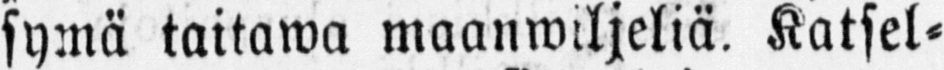symä taitawa maanwiljeliä. Katsel-
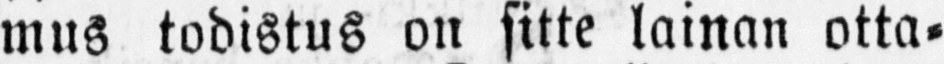mus todistus on sitte lainan otta-
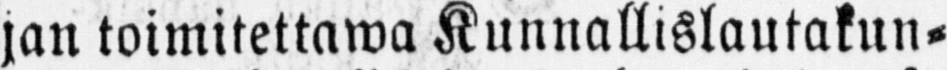jan toimitettawa Kunnallislautakun-
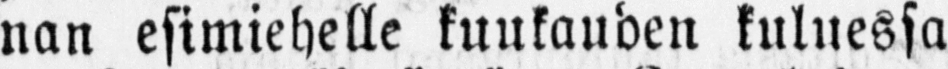nan esimiehelle kuukauden kuluessa
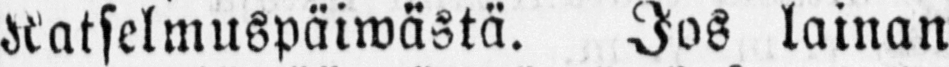Katselmuspäiwästä. Jos lainan
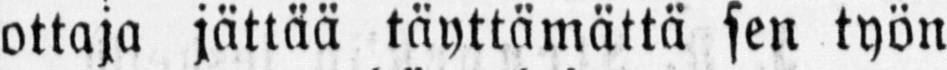ottaja jättää täyttämättä sen työn
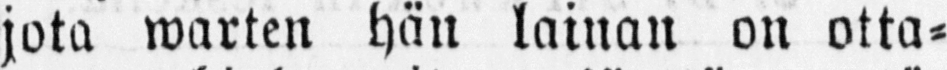jota warten hän lainan on otta-
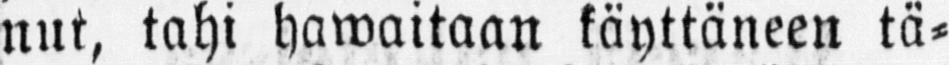nut, tahi hawaitaan käyttäneen tä-
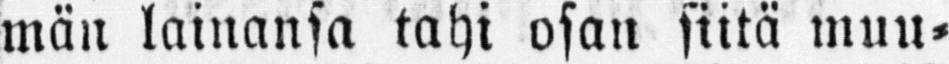män lainansa tahi osan siitä muu-
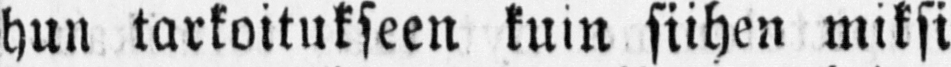hun tarkoitukseen kuin siihen miksi
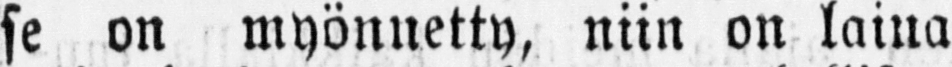se on myönnetty, niin on laina
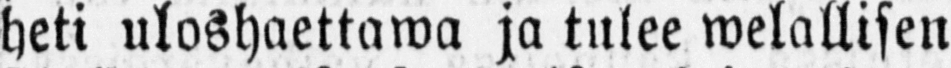heti uloshaettawa ja tulee welallisen
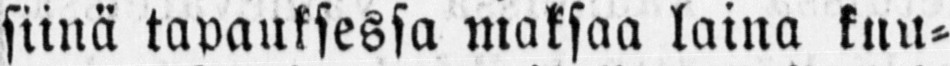siinä tapauksessa maksaa laina kuu-
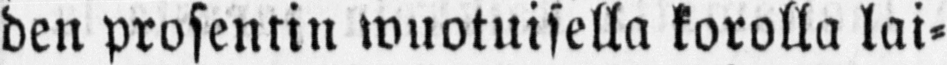den prosentin wuotuisella korolla lai-
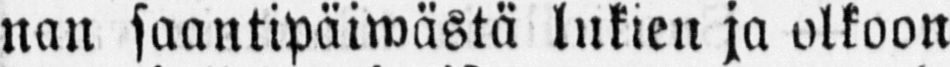nan saantipäiwästä lukien ja olkoon
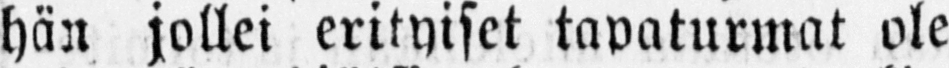hän jollei erityiset tapaturmat ole
